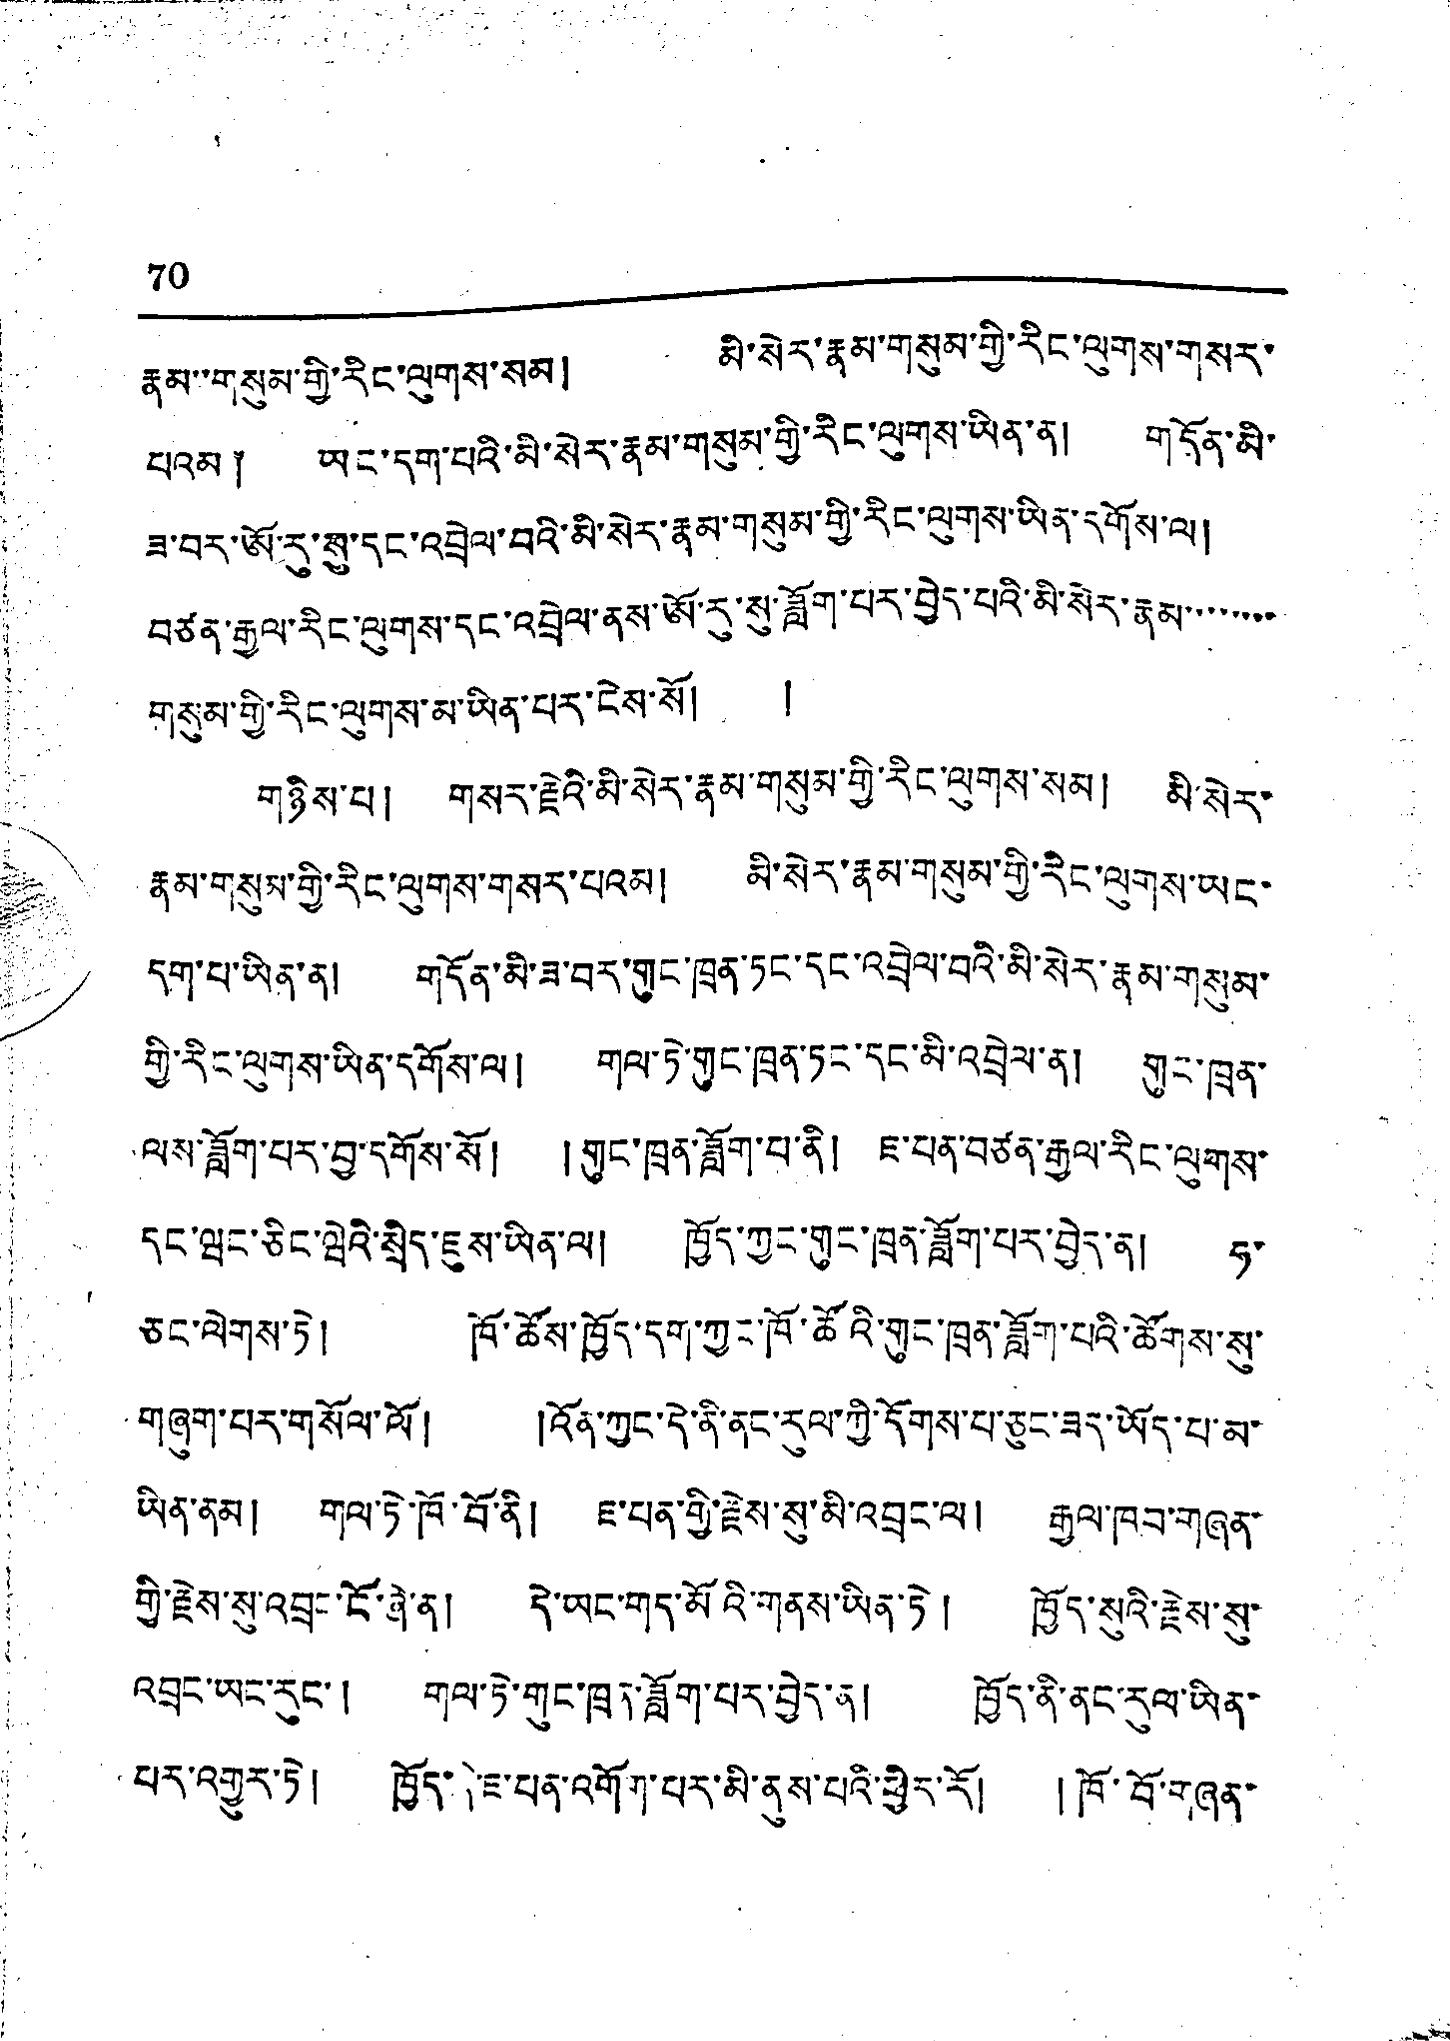70
རྣམ་་གསུམ་གྱི་རིང་ལུགས་སམ། མི་སེར་རྣམ་གསུམ་གྱི་རིང་ལུགས་གསར་
པའམ ༐ ཡང་དག་པའི་མི་སེར་རྣམ་གསུམ་གྱི་རིང་ལུགས་ཡིན་ན། གདོན་མྱི་
ཟ་བར་ཨོ་རུ་སུ་དང་འབྲེལ་བའི་མི་སེར་རྣམ་གསུམ་གྱི་རིང་ལུགས་ཡིན་དགོས་ལ།
བཙན་རྒྱལ་རིང་ལུགས་དང་འབྲེལ་ནས་ཨོ་རུ་སུ་ཟློག་པར་བྱེད་པའི་མི་སེར་རྣམ་་་་་་་་
གསུམ་གྱི་རིང་ལུགས་མ་ཡིན་པར་ངེས་སོ། །
གཉིས་པ། གསར་རྗེའི་མི་སེར་རྣམ་གསུམ་གྱི་རིང་ལུགས་སམ། མི་སེར་
རྣམ་གསུལ་གྱི་རིང་ལུགས་གསར་པའམ། མི་སེར་རྣམ་གསུམ་གྱི་རེང་ལུགས་ཡང་
དག་པ་ཡིན་ན། གདོན་མི་ཟ་བར་གུང་ཁྲན་ཏང་དང་འབྲེལ་བའི་མི་སེར་རྣམ་གསུམ་
གྱི་རིང་ལུགས་ཡིན་དགོས་ལ། གལ་ཏེ་གུང་ཁྲན་ཏང་དང་མི་འབྲེལ་ན། གུང་ཁྲན་
ལས་ཟློག་པར་བྱ་དགོས་སོ། །གུང་ཁྲན་ཟློག་པ་ནི། ཇ་པན་བཙན་རྒྱལ་རིང་ལུགས་
དང་ཝང་ཅིང་ཝེའི་སྲིད་ཇུས་ཡིན་ལ། ཁྱོད་ཀྱང་གུང་ཁྲན་ཟློག་པར་བྱེད་ན། ཧ་
ཅང་ལེགས་ཏེ། ཁོ་ཚོས་ཁྱོད་དགུ་ཀྱང་ཁོ་ཚོའི་གུང་ཁྲན་ཟློག་པའི་ཚོགས་སུ་
གཞག་པར་གསོལ་ལོ། །འོན་ཀྱང་དེ་ནི་ནང་རུལ་ཀྱི་དོགས་པ་ཅུང་ཟད་ཡོད་པ་མ་
ཡིན་ནམ། གལ་ཏེ་ཁོ་བོ་ནི། ཇ་པན་གྱི་རྗེས་སུ་མི་འབྲུང་ལ། རྒྱལ་ཁབ་གཞན་
གྱི་རྗེས་སུ་འབྲུང་ངོ་ཞེ་ན། དེ་ཡང་གད་མོའི་གནས་ཡིན་ཏེ། ཁྱོད་སུའི་རྗེས་སུ་
འབྲུང་ཡང་རུང་། གལ་ཏེ་གུང་ཁྲན་ཟློག་པར་བྱེད་ན། ཁྱོད་ནི་ནང་རུལ་ཡིན་
པར་འགྱུར་ཏེ། ཁྱོད་དེ་ཇ་པན་འགོག་པར་མི་ནུས་པའི་ཕྱིར་རོ། །ཁོ་བོ་གཞན་
